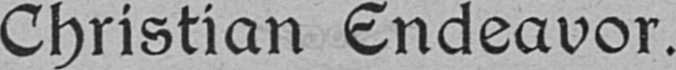Christian Endeavor.
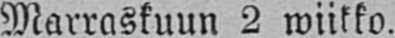Marraskuun 2 wiikko.
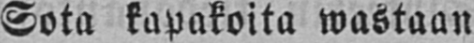Sota kapakoita wastaan.
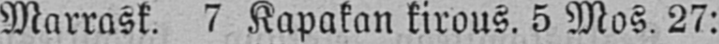Marrask. 7 Kapakan kirous. 5 Mos. 27:
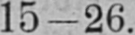15-26.
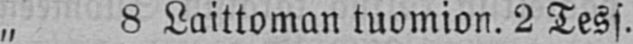„ 8 Laittoman tuomion. 2 Tess.
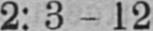2: 3 - 12
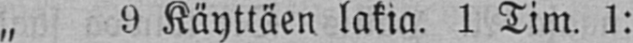„ 9 Käyttäen lakia. 1 Tim. 1:
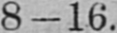8-16.
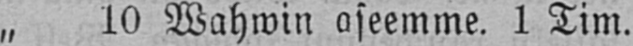„ 10 Wahwin aseemme. 1 Tim.
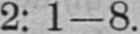2: 1-8.
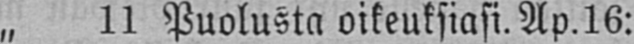„ 11 Puolusta oikeuksiasi.Ap. 16:
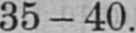35 - 40.
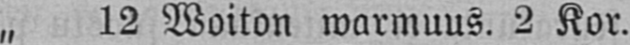„ 12 Woiton warmuus. 2 Kor.
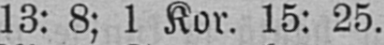13: 8; 1 Kor. 15: 25.
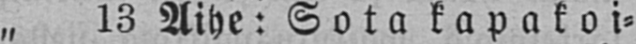„ 13 Aihe: Sota kapakoi-
